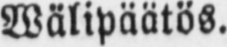Wälipäätös.
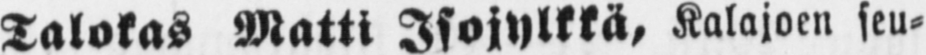Talokas Matti Isojylkkä, Kalajoen seu-
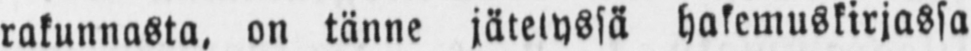rakunnasta, on tänne jätetyssä hakemuskirjassa
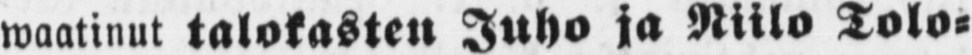waatinut talokasten Juho ja Niilo Tolo-
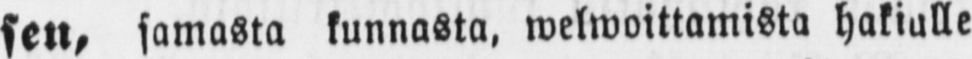sen, samasta kunnasta, welwoittamista hakialle
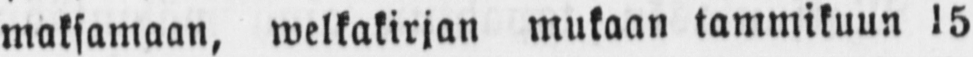maksamaan, welkakirjan mukaan tammikuun 15
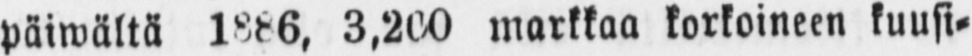päiwältä 1886, 3.200 markkaa korkoineen kuusi-
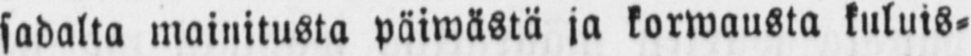sadalta mainitusta päiwästä ja korwausta kuluis-
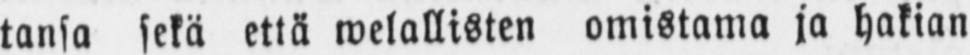tansa sekä että welallisten omistama ja hakian
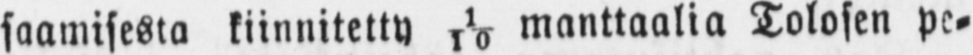saamisesta kiinnitetty 1/10 manttaalia Tolosen pe-
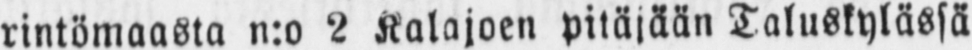rintömaasta n:o 2 Kalajoen pitäjään Taluskylässä
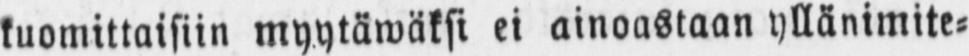kuomittaisiin myytäwäksi ei ainoastaan yllänimite-
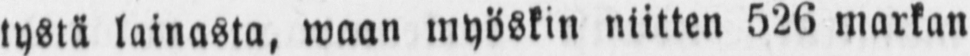tystä lainasta, waan myöskin niitten 526 markan
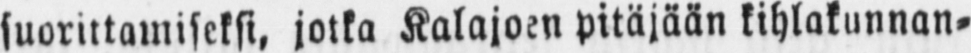suorittamiseksi, jotka Kalajoen pitäjään kihlakunnan-
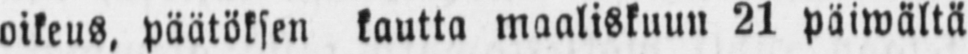oikeus, päätöksen kautta maaliskuun 21 päiwältä
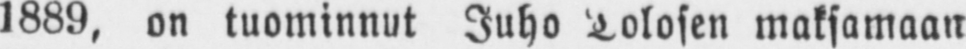1889, on tuominnut Juho Tolosen maksamaan
